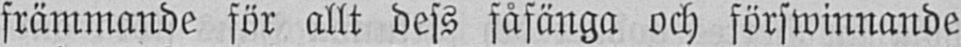främmande för allt dess fåfänga och förswinnande
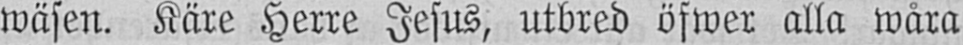wäsen. Käre Herre Jesus, utbred öfwer alla wåra
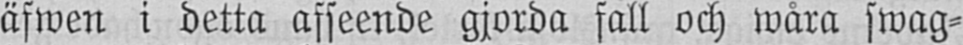äfwen i detta afseende gjorda fall och wåra swag-
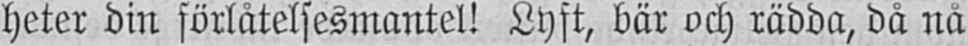heter din förlåtelsesmantel! Lyft, bär och rädda, då nå
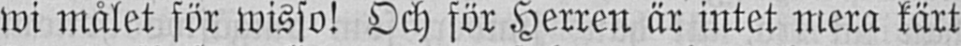wi målet för wisso! Och för Herren är intet mera kärt
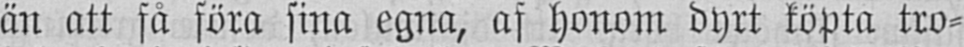än att få föra sina egna, af honom dyrt köpta tro-
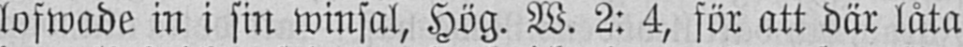lofwade in i sin winsal, Hög. W. 2: 4, för att där låta
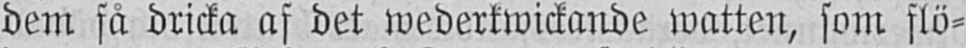dem få dricka af det wederkwickande watten, som flö-
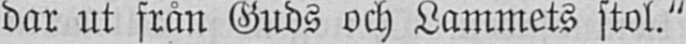dar ut från Guds och Lammets stol."
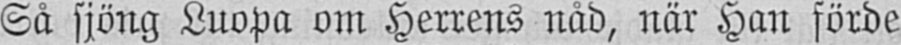Så sjöng Luopa om Herrens nåd, när Han förde
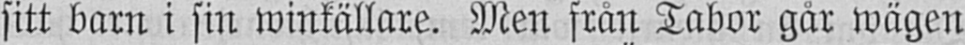sitt barn i sin winkällare. Men från Tabor går wägen
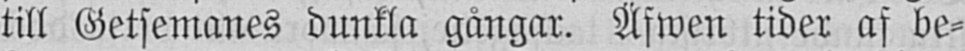till Getsemanes dunkla gångar. Äfwen tider af be-
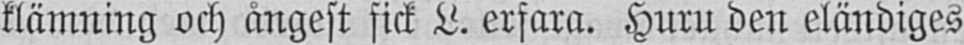klämning och ångest fick L. erfara. Huru den eländiges
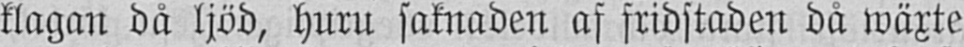klagan då ljöd, huru saknaden af fridstaden då wäxte
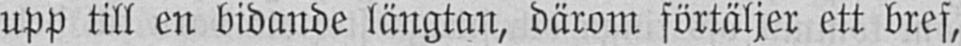upp till en bidande längtan, därom förtäljer ett bref,
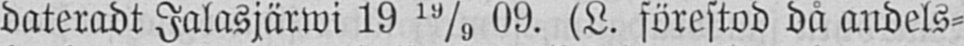dateradt Jalasjärwi 19 19/9 09. (L. förestod då andels-
